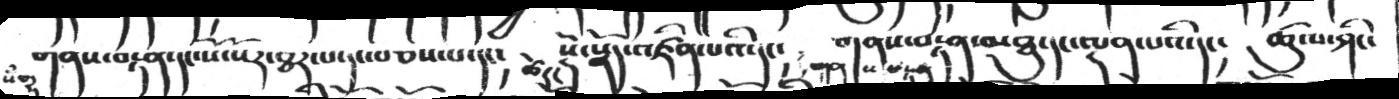གནས་བརྟན་དང་སོ་སོར་ཐར་པ་ཏ་བཅས་པ་དང།   ཚེ།།  སྡེ་སྣོད་འཛིན་པའི་དང།   གནས་བརྟན་མཐུ་དང་ལྡན་པའི་དང།   ཚུལ་ཤིང་
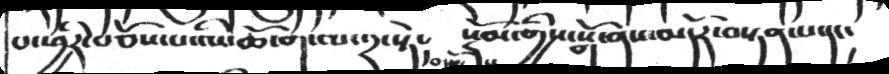པ་ཕྱིར་བཅོས་པ་ཡི་ཆོ་ག་ལ་༢་སྟེ།    སྡོམ་གྱིས་སྒོ་ནས་མདོར་བསྟན་པ་དང།
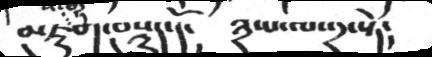མཇུག་བསྡུད་དོ།      ༣་པ་ལ་༢་སྟེ།
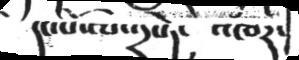དང་པོ་ལ་༢་ཏེ།  འཁར་་
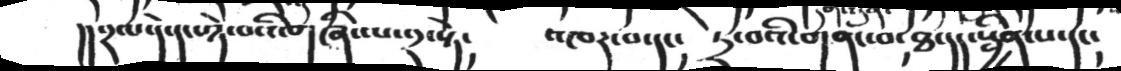།།༢ལ་དེ་དང་ཉེ་བའི་གཞི་ལ་༢་སྟེ།  འཁར་བ་དང།  དྲ་བའི་གནང་བ་ཐ་དད་སྦྱིན་པ་དང།
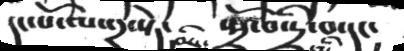དང་པོ་ལ་༢་སྟེ༴  སྤྲོ་བ་དྲི་བ་དང༴
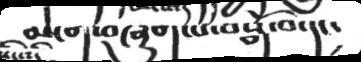མངག་བཞུག་པ་བསྒོ་བ་དང༴
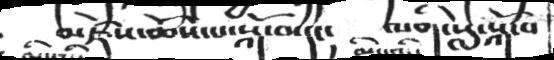མཛེས་ཆོས་པ་སྐོ་བ་དང༴  ལག་སླེ་སྐོ་བ
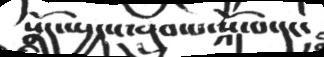སྣོད་སྤྱངས་བླུབ་པ་སྐོ་བ་དང༴
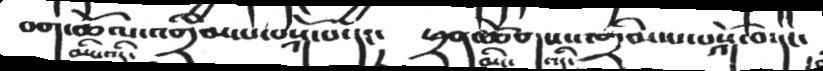བག་ཆོལ་འགྲིམ་པ་བསྐོ་བ་དང༴  ཕྲན་ཚོགས་པ་གྲིམ་པ་བསྐོ་བ་དང༴
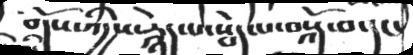གོས་ཀྱིས་རྙེད་པ་སྦེད་པ་བསྐོ་བ་དང་
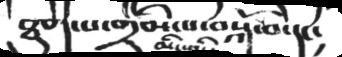ཐུག་པ་གྲིམ་པ་བསྐོ་བ་དང༴
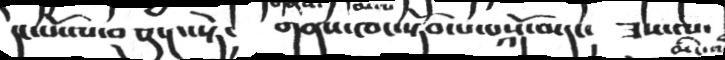དང་པོ་ལ་བཅུ་༤་སྟེ༴  གནས་ཁང་སྟོབ་པ་བསྐོ་བ་དང༴  ཟས་ལ་
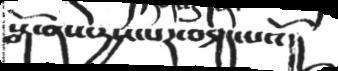སྒོ་ནས་རྱས་པར་བཤད་པའོ།།
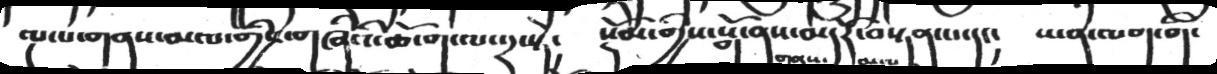ལྔ་པ་གནས་མལ་གྱི་གཞིའི་ཆོ་ག་ལ་༢་སྟེ།    སྡོམ་གྱིས་སྒོ་ནས་མདོར་བསྟན་པ་དང།     ཡན་ལག་གི་
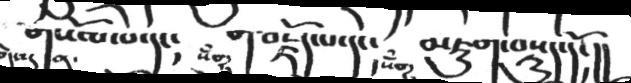གསོལ་པ་དང།    ག་བརྗོད་པ་དང།   མཇུག་བསྡུད་དོ་།།
